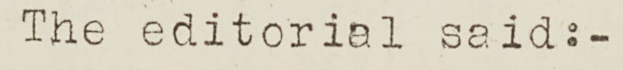The editorial said:
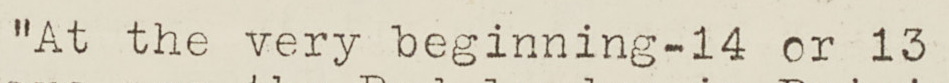"At the very beginning-14 or 13
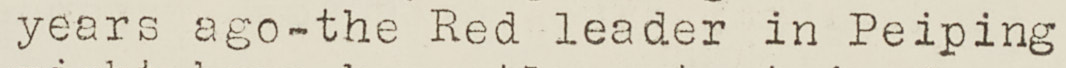years ago-the Red leader in Peiping
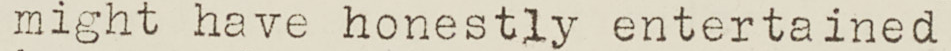might have honestly entertained
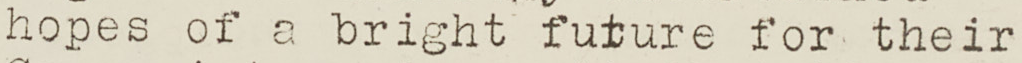hopes es of a bright future for their
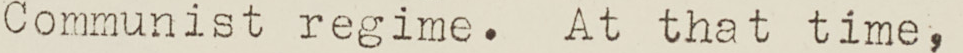Communist regime. At that time,
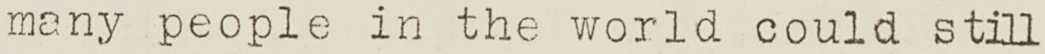many people in the world could still
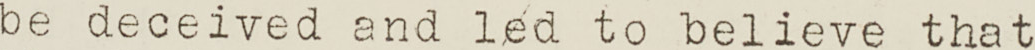be deceived and led to believe that
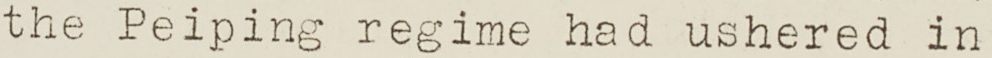regime had ushered in
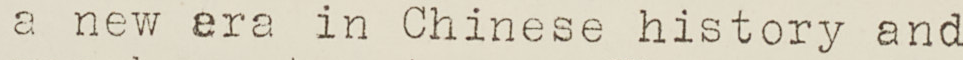a new era in Chinese history and
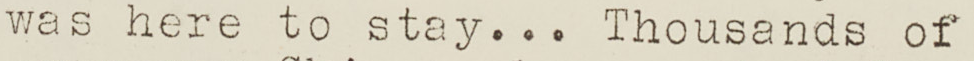was here to stay... Thousands of
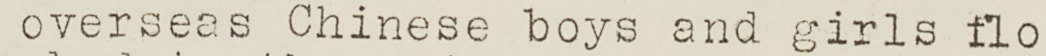overseas Chinese boys and girls fo
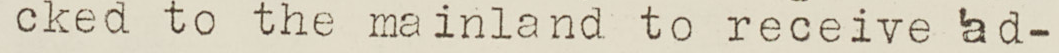cked to the mainland to receive 'ad-
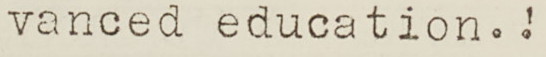vanced education.'
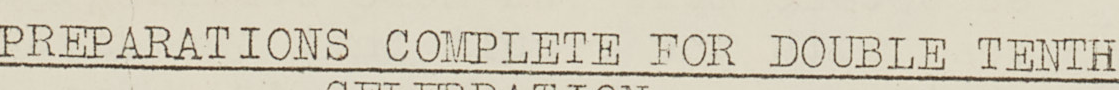PREPARATIONS COMPLETE FOR DOUBLE TENTH
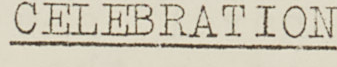CELEBRATION
